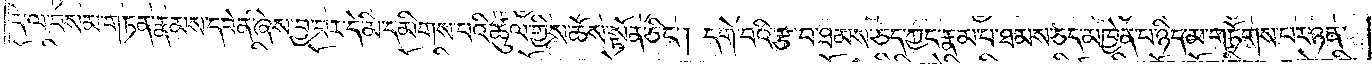དེ་ལ་བསམ་གཏན་རྣམས་དབེན་ཞེས་བྱ་བར་དེ་མི་དམིགས་པའི་ཚུལ་གྱིས་ཆོས་སྟོན་ཅིང༌། དགེ་བའི་རྩ་བ་ཐམས་ཅད་ཀྱང་རྣམ་པ་ཐམས་ཅད་མཁྱེན་པ་ཉིད་མ་གཏོགས་པར་ཉན་
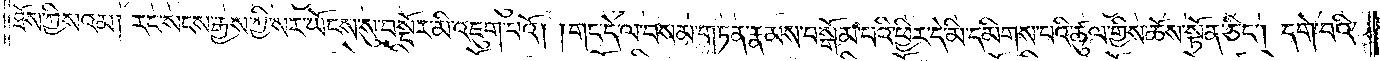ཐོས་ཀྱི་སའམ། རང་སངས་རྒྱས་ཀྱི་སར་ཡོངས་སུ་བསྔོར་མི་འཇུག་པའོ། །གང་དེ་ལ་བསམ་གཏན་རྣམས་བསྒོམ་པའི་ཕྱིར་དེ་མི་དམིགས་པའི་ཚུལ་གྱིས་ཆོས་སྟོན་ཅིང༌། དགེ་བའི་
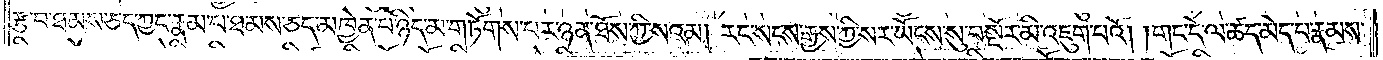རྩ་བ་ཐམས་ཅད་ཀྱང་རྣམ་པ་ཐམས་ཅད་མཁྱེན་པ་ཉིད་མ་གཏོགས་པར་ཉན་ཐོས་ཀྱི་སའམ། རང་སངས་རྒྱས་ཀྱི་སར་ཡོངས་སུ་བསྔོར་མི་འཇུག་པའོ། །གང་དེ་ལ་ཚད་མེད་པ་རྣམས་
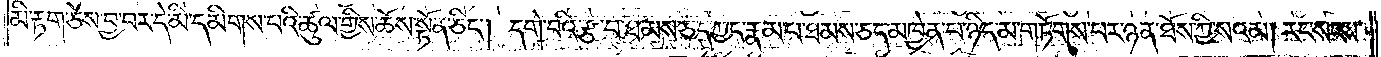མི་རྟག་ཅེས་བྱ་བར་དེ་མི་དམིགས་པའི་ཚུལ་གྱིས་ཆོས་སྟོན་ཅིང༌། དགེ་བའི་རྩ་བ་ཐམས་ཅད་ཀྱང་རྣམ་པ་ཐམས་ཅད་མཁྱེན་པ་ཉིད་མ་གཏོགས་པར་ཉན་ཐོས་ཀྱི་སའམ། རང་སངས་
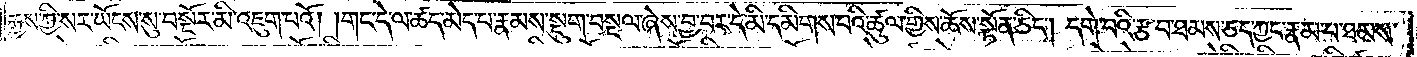རྒྱས་ཀྱི་སར་ཡོངས་སུ་བསྔོར་མི་འཇུག་པའོ། །གང་དེ་ལ་ཚད་མེད་པ་རྣམས་སྡུག་བསྔལ་ཞེས་བྱ་བར་དེ་མི་དམིགས་པའི་ཚུལ་གྱིས་ཆོས་སྟོན་ཅིང༌། དགེ་བའི་རྩ་བ་ཐམས་ཅད་ཀྱང་རྣམ་པ་ཐམས་
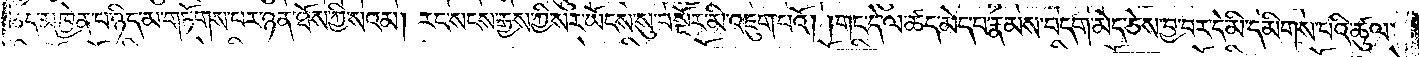ཅད་མཁྱེན་པ་ཉིད་མ་གཏོགས་པར་ཉན་ཐོས་ཀྱི་སའམ། རང་སངས་རྒྱས་ཀྱི་སར་ཡོངས་སུ་བསྔོར་མི་འཇུག་པའོ། །གང་དེ་ལ་ཚད་མེད་པ་རྣམས་བདག་མེད་ཅེས་བྱ་བར་དེ་མི་དམིགས་པའི་ཚུལ་
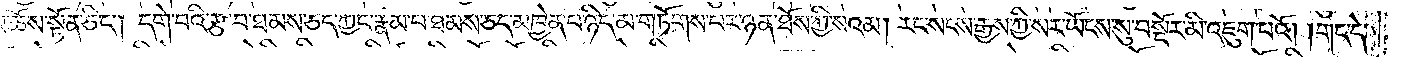གྱིས་ཆོས་སྟོན་ཅིང༌། དགེ་བའི་རྩ་བ་ཐམས་ཅད་ཀྱང་རྣམ་པ་ཐམས་ཅད་མཁྱེན་པ་ཉིད་མ་གཏོགས་པར་ཉན་ཐོས་ཀྱི་སའམ། རང་སངས་རྒྱས་ཀྱི་སར་ཡོངས་སུ་བསྔོར་མི་འཇུག་པའོ། །གང་དེ་
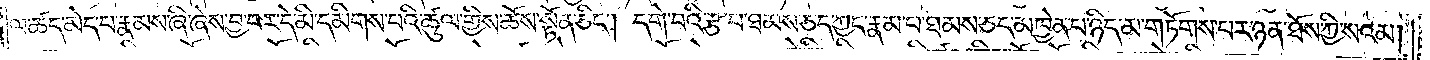ལ་ཚད་མེད་པ་རྣམས་ཞི་ཞེས་བྱ་བར་དེ་མི་དམིགས་པའི་ཚུལ་གྱིས་ཆོས་སྟོན་ཅིང༌། དགེ་བའི་རྩ་བ་ཐམས་ཅད་ཀྱང་རྣམ་པ་ཐམས་ཅད་མཁྱེན་པ་ཉིད་མ་གཏོགས་པར་ཉན་ཐོས་ཀྱི་སའམ།
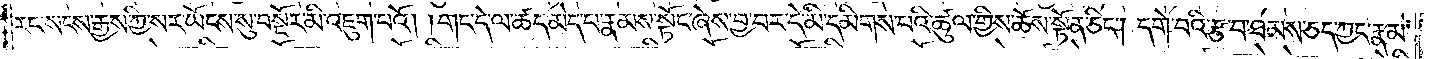རང་སངས་རྒྱས་ཀྱི་སར་ཡོངས་སུ་བསྔོར་མི་འཇུག་པའོ། །གང་དེ་ལ་ཚད་མེད་པ་རྣམས་སྟོང་ཞེས་བྱ་བར་དེ་མི་དམིགས་པའི་ཚུལ་གྱིས་ཆོས་སྟོན་ཅིང༌། དགེ་བའི་རྩ་བ་ཐམས་ཅད་ཀྱང་རྣམ་
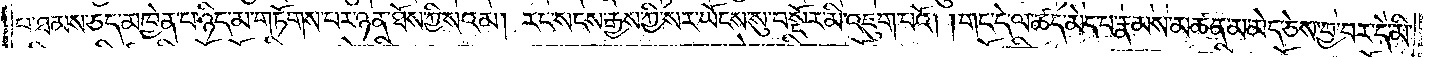པ་ཐམས་ཅད་མཁྱེན་པ་ཉིད་མ་གཏོགས་པར་ཉན་ཐོས་ཀྱི་སའམ། རང་སངས་རྒྱས་ཀྱི་སར་ཡོངས་སུ་བསྔོར་མི་འཇུག་པའོ། །གང་དེ་ལ་ཚད་མེད་པ་རྣམས་མཚན་མ་མེད་ཅེས་བྱ་བར་དེ་མི་
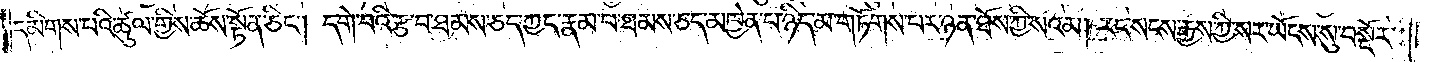དམིགས་པའི་ཚུལ་གྱིས་ཆོས་སྟོན་ཅིང༌། དགེ་བའི་རྩ་བ་ཐམས་ཅད་ཀྱང་རྣམ་པ་ཐམས་ཅད་མཁྱེན་པ་ཉིད་མ་གཏོགས་པར་ཉན་ཐོས་ཀྱི་སའམ། རང་སངས་རྒྱས་ཀྱི་སར་ཡོངས་སུ་བསྔོར་
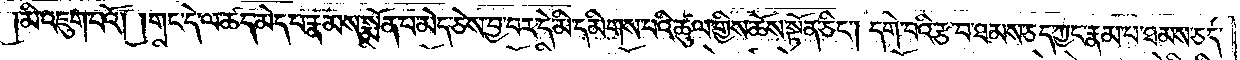མི་འཇུག་པའོ། །གང་དེ་ལ་ཚད་མེད་པ་རྣམས་སྨོན་པ་མེད་ཅེས་བྱ་བར་དེ་མི་དམིགས་པའི་ཚུལ་གྱིས་ཆོས་སྟོན་ཅིང༌། དགེ་བའི་རྩ་བ་ཐམས་ཅད་ཀྱང་རྣམ་པ་ཐམས་ཅད་
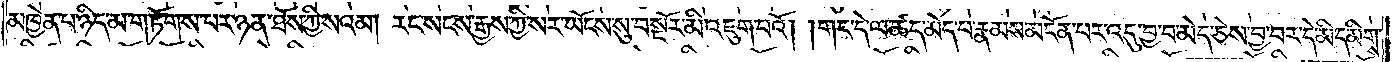མཁྱེན་པ་ཉིད་མ་གཏོགས་པར་ཉན་ཐོས་ཀྱི་སའམ། རང་སངས་རྒྱས་ཀྱི་སར་ཡོངས་སུ་བསྔོར་མི་འཇུག་པའོ། །གང་དེ་ལ་ཚད་མེད་པ་རྣམས་མངོན་པར་འདུ་བྱ་བ་མེད་ཅེས་བྱ་བར་དེ་མི་དམིགས་
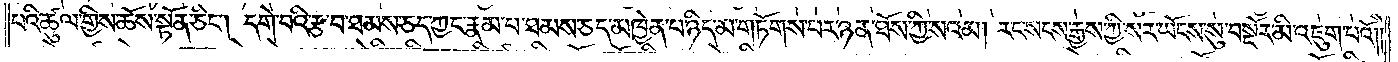པའི་ཚུལ་གྱིས་ཆོས་སྟོན་ཅིང༌། དགེ་བའི་རྩ་བ་ཐམས་ཅད་ཀྱང་རྣམ་པ་ཐམས་ཅད་མཁྱེན་པ་ཉིད་མ་གཏོགས་པར་ཉན་ཐོས་ཀྱི་སའམ། རང་སངས་རྒྱས་ཀྱི་སར་ཡོངས་སུ་བསྔོར་མི་འཇུག་པའོ༎
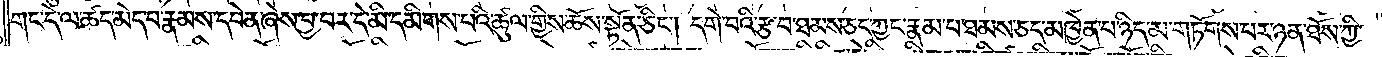གང་དེ་ལ་ཚད་མེད་པ་རྣམས་དབེན་ཞེས་བྱ་བར་དེ་མི་དམིགས་པའི་ཚུལ་གྱིས་ཆོས་སྟོན་ཅིང༌། དགེ་བའི་རྩ་བ་ཐམས་ཅད་ཀྱང་རྣམ་པ་ཐམས་ཅད་མཁྱེན་པ་ཉིད་མ་གཏོགས་པར་ཉན་ཐོས་ཀྱི་
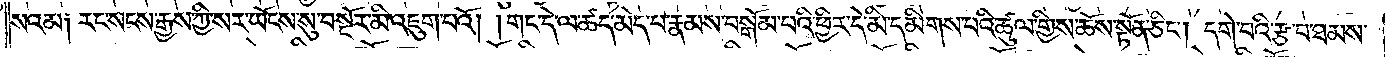སའམ༑ རང་སངས་རྒྱས་ཀྱི་སར་ཡོངས་སུ་བསྔོར་མི་འཇུག་པའོ། །གང་དེ་ལ་ཚད་མེད་པ་རྣམས་བསྒོམ་པའི་ཕྱིར་དེ་མི་དམིགས་པའི་ཚུལ་གྱིས་ཆོས་སྟོན་ཅིང༌། དགེ་བའི་རྩ་བ་ཐམས་
